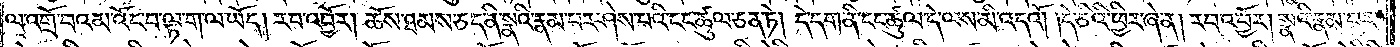ལ་འགྲོ་བའམ་འོང་བ་ལྟ་ག་ལ་ཡོད། རབ་འབྱོར། ཆོས་ཐམས་ཅད་ནི་སྣའི་རྣམ་པར་ཤེས་པའི་ངང་ཚུལ་ཅན་ཏེ། དེ་དག་ནི་ངང་ཚུལ་དེ་ལས་མི་འདའོ། །དེ་ཅིའི་ཕྱིར་ཞེ་ན། རབ་འབྱོར། སྣའི་རྣམ་པར་
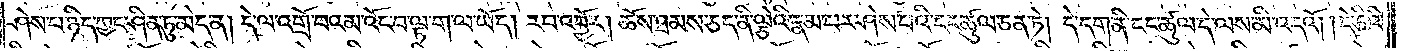ཤེས་པ་ཉིད་ཀྱང་ཤིན་ཏུ་མེད་ན། དེ་ལ་འགྲོ་བའམ་འོང་བ་ལྟ་ག་ལ་ཡོད། རབ་འབྱོར། ཆོས་ཐམས་ཅད་ནི་ལྕེའི་རྣམ་པར་ཤེས་པའི་ངང་ཚུལ་ཏེ། དེ་དག་ནི་ངང་ཚུལ་དེ་ལས་མི་འདའོ། །དེ་ཅིའི་
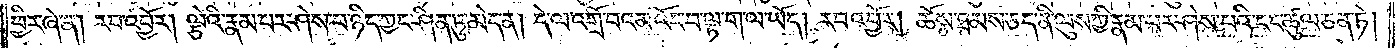ཕྱིར་ཞེ་ན། རབ་འབྱོར། ལྕེའི་རྣམ་པར་ཤེས་པ་ཉིད་ཀྱང་ཤིན་ཏུ་མེད་ན། དེ་ལ་འགྲོ་བའམ་འོང་བ་ལྟ་ག་ལ་ཡོད། རབ་འབྱོར། ཆོས་ཐམས་ཅད་ནི་ལུས་ཀྱི་རྣམ་པར་ཤེས་པའི་ངང་ཚུལ་ཅན་ཏེ།
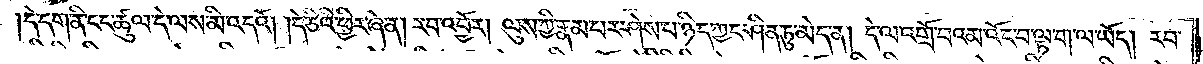དེ་དག་ནི་ངང་ཚུལ་དེ་ལས་མི་འདའོ། །དེ་ཅིའི་ཕྱིར་ཞེ་ན། རབ་འབྱོར། ལུས་ཀྱི་རྣམ་པར་ཤེས་པ་ཉིད་ཀྱང་ཤིན་ཏུ་མེད་ན། དེ་ལ་འགྲོ་བའམ་འོང་བ་ལྟ་ག་ལ་ཡོད། རབ་
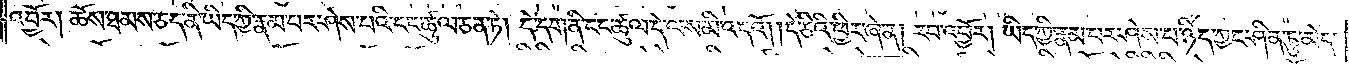འབྱོར། ཆོས་ཐམས་ཅད་ནི་ཡིད་ཀྱི་རྣམ་པར་ཤེས་པའི་ངང་ཚུལ་ཅན་ཏེ། དེ་དག་ནི་ངང་ཚུལ་དེ་ལས་མི་འདའོ། །དེ་ཅིའི་ཕྱིར་ཞེ་ན། རབ་འབྱོར། ཡིད་ཀྱི་རྣམ་པར་ཤེས་པ་ཉིད་ཀྱང་ཤིན་ཏུ་མེད་
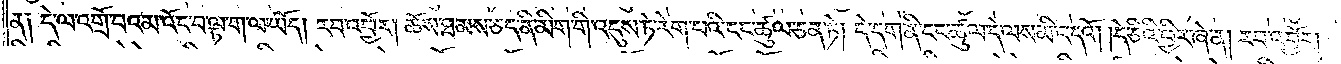ན༑ དེ་ལ་འགྲོ་བའམ་འོང་བ་ལྟ་ག་ལ་ཡོད། རབ་འབྱོར། ཆོས་ཐམས་ཅད་ནི་མིག་གི་འདུས་ཏེ་རེག་པའི་ངང་ཚུལ་ཅན་ཏེ། དེ་དག་ནི་ངང་ཚུལ་དེ་ལས་མི་འདའོ། །དེ་ཅིའི་ཕྱིར་ཞེ་ན། རབ་འབྱོར།
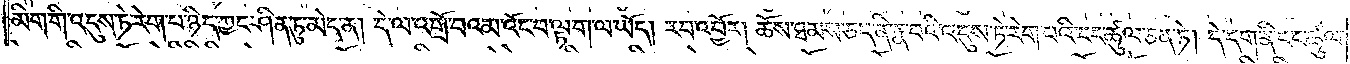མིག་གི་འདུས་ཏེ་རེག་པ་ཉིད་ཀྱང་ཤིན་ཏུ་མེད་ན། དེ་ལ་འགྲོ་བའམ་འོང་བ་ལྟ་ག་ལ་ཡོད། རབ་འབྱོར། ཆོས་ཐམས་ཅད་ནི་རྣ་བའི་འདུས་ཏེ་རེག་པའི་ངང་ཚུལ་ཅན་ཏེ། དེ་དག་ནི་ངང་ཚུལ་
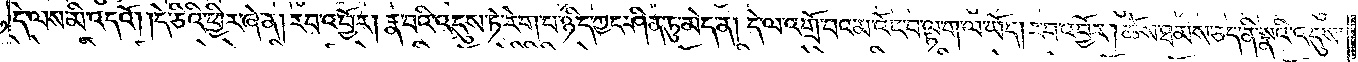དེ་ལས་མི་འདའོ། །དེ་ཅིའི་ཕྱིར་ཞེ་ན། རབ་འབྱོར། རྣ་བའི་འདུས་ཏེ་རེག་པ་ཉིད་ཀྱང་ཤིན་ཏུ་མེད་ན། དེ་ལ་འགྲོ་བའམ་འོང་བ་ལྟ་ག་ལ་ཡོད། རབ་འབྱོར། ཆོས་ཐམས་ཅད་ནི་སྣའི་འདུས་
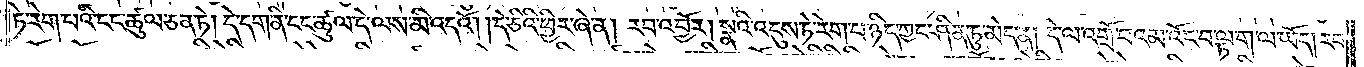ཏེ་རེག་པའི་ངང་ཚུལ་ཅན་ཏེ། དེ་དག་ནི་ངང་ཚུལ་དེ་ལས་མི་འདའོ། །དེ་ཅིའི་ཕྱིར་ཞེ་ན། རབ་འབྱོར། སྣའི་འདུས་ཏེ་རེག་པ་ཉིད་ཀྱང་ཤིན་ཏུ་མེད་ན། དེ་ལ་འགྲོ་བའམ་འོང་བ་ལྟ་ག་ལ་ཡོད། རབ་
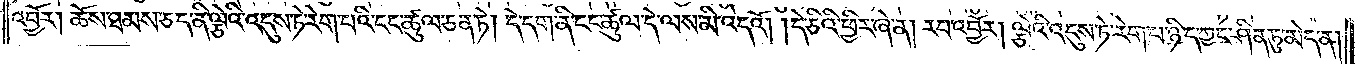འབྱོར། ཆོས་ཐམས་ཅད་ནི་ལྕེའི་འདུས་ཏེ་རེག་པའི་ངང་ཚུལ་ཅན་ཏེ། དེ་དག་ནི་ངང་ཚུལ་དེ་ལས་མི་འདའོ། དེ་ཅིའི་ཕྱིར་ཞེ་ན། རབ་འབྱོར། ལྕེའི་འདུས་ཏེ་རེག་པ་ཉིད་ཀྱང་ཤིན་ཏུ་མེད་ན།
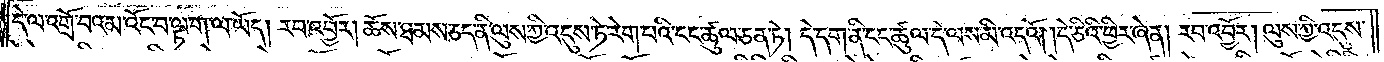དེ་ལ་འགྲོ་བའམ་འོང་བ་ལྟ་ག་ལ་ཡོད། རབ་འབྱོར། ཆོས་ཐམས་ཅད་ནི་ལུས་ཀྱི་འདུས་ཏེ་རེག་པའི་ངང་ཚུལ་ཅན་ཏེ། དེ་དག་ནི་ངང་ཚུལ་དེ་ལས་མི་འདའོ། །དེ་ཅིའི་ཕྱིར་ཞེ་ན། རབ་འབྱོར། ལུས་ཀྱི་འདུས་
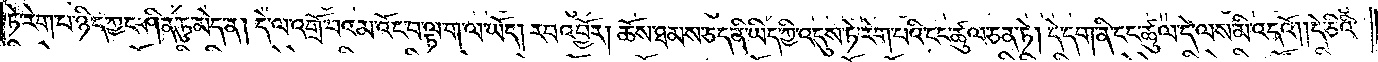ཏེ་རེག་པ་ཉིད་ཀྱང་ཤིན་ཏུ་མེད་ན། དེ་ལ་འགྲོ་བའམ་འོང་བ་ལྟ་ག་ལ་ཡོད། རབ་འབྱོར། ཆོས་ཐམས་ཅད་ནི་ཡིད་ཀྱི་འདུས་ཏེ་རེག་པའི་ངང་ཚུལ་ཅན་ཏེ། དེ་དག་ནི་ངང་ཚུལ་དེ་ལས་མི་འདའོ༎དེ་ཅིའི་
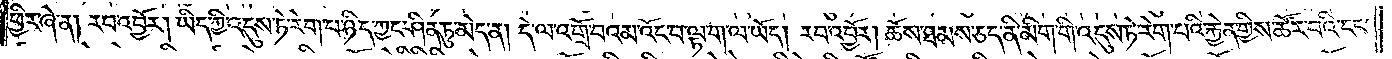ཕྱིར་ཞེ་ན། རབ་འབྱོར། ཡིད་ཀྱི་འདུས་ཏེ་རེག་པ་ཉིད་ཀྱང་ཤིན་ཏུ་མེད་ན། དེ་ལ་འགྲོ་བའམ་འོང་བ་ལྟ་ག་ལ་ཡོད། རབ་འབྱོར། ཆོས་ཐམས་ཅད་ནི་མིག་གི་འདུས་ཏེ་རེག་པའི་རྐྱེན་གྱིས་ཚོར་བའི་ངང་
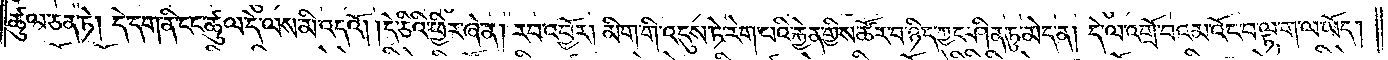ཚུལ་ཅན་ཏེ། དེ་དག་ནི་ངང་ཚུལ་དེ་ལས་མི་འདའོ། །དེ་ཅིའི་ཕྱིར་ཞེ་ན། རབ་འབྱོར། མིག་གི་འདུས་ཏེ་རེག་པའི་རྐྱེན་གྱིས་ཚོར་བ་ཉིད་ཀྱང་ཤིན་ཏུ་མེད་ན། དེ་ལ་འགྲོ་བའམ་འོང་བ་ལྟ་ག་ལ་ཡོད།
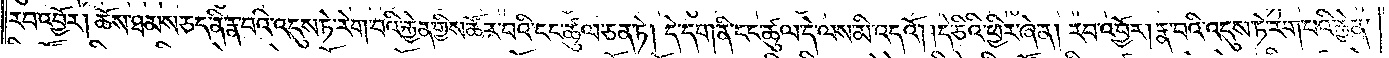རབ་འབྱོར། ཆོས་ཐམས་ཅད་ནི་རྣ་བའི་འདུས་ཏེ་རེག་པའི་རྐྱེན་གྱིས་ཚོར་བའི་ངང་ཚུལ་ཅན་ཏེ། དེ་དག་ནི་ངང་ཚུལ་དེ་ལས་མི་འདའོ། །དེ་ཅིའི་ཕྱིར་ཞེ་ན། རབ་འབྱོར། རྣ་བའི་འདུས་ཏེ་རེག་པའི་རྐྱེན་
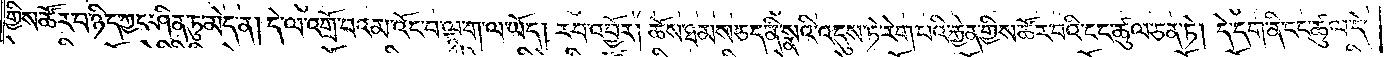གྱིས་ཚོར་བ་ཉིད་ཀྱང་ཤིན་ཏུ་མེད་ན། དེ་ལ་འགྲོ་བའམ་མ་འོང་བ་ལྟ་ག་ལ་ཡོད། རབ་འབྱོར། ཆོས་ཐམས་ཅད་ནི་སྣའི་འདུས་ཏེ་རེག་པའི་རྐྱེན་གྱིས་ཚོར་བའི་ངང་ཚུལ་ཅན་ཏེ། དེ་དག་ནི་ངང་ཚུལ་དེ་
